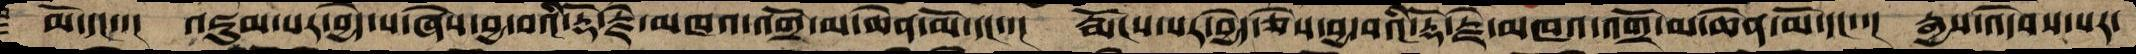མོ་དང་་།  འཇུམ་པར་བྱེད་པ་ཞེས་བྱ་བའི་རྡོ་རྗེ་མཁའ་འགྲོ་མ་ཆེན་མོ་དང་་།  རྨོངས་པར་བྱེད་ཅེས་བྱ་བའི་རྡོ་རྗེ་མཁའ་འགྲོ་མ་ཆེན་མོ་དང་་།  རྒྱས་འདེབས་པར་
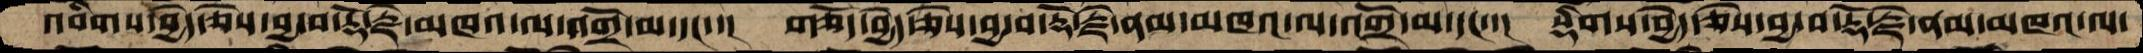འབིགས་བྱེད་ཅེས་བྱ་བ་རྡོ་རྗེ་མཁའ་ལ་འགྲོ་མ་དང་་།  གཅོད་བྱེད་ཅེས་བྱ་བ་རྡོ་རྗེ་ནམ་མཁའ་ལ་འགྲོ་མ་དང་་།  སྡིགས་བྱེད་ཅེས་བྱ་བ་རྡོ་རྗེ་ནམ་མཁའ་ལ་
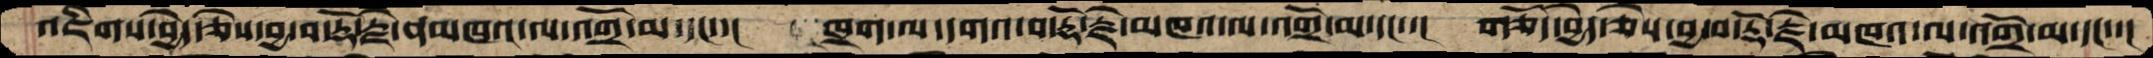འཇིགས་བྱེད་ཅེས་བྱ་བ་རྡོ་རྗེ་ནམཁའ་ལ་འགྲོ་མ་དང་་།  ཁྲག་ལ་དགའ་བ་རྡོ་རྗེ་མཁའ་ལ་འགྲོ་མ་དང་་།  གཅོད་བྱེད་ཅེས་བྱ་བ་རྡོ་རྗེ་མཁའ་ལ་འགྲོ་མ་དང་་།
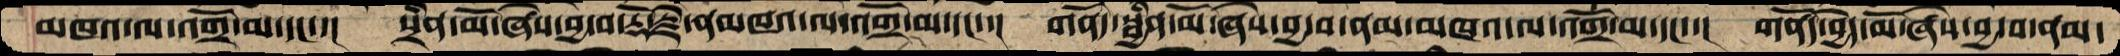མཁའ་ལ་འགྲོ་མ་དང་་།  སྲིན་མོ་ཞེས་བྱ་བ་རྡོ་རྗེ་ནམཁའ་ལ་འགྲོ་མ་དང་་།  གནོད་སྦྱིན་མོ་ཞེས་བྱ་བ་ནམ་མཁའ་ལ་འགྲོ་མ་དང་་། གནོད་བྱེད་མོ་ཞེས་བྱ་བ་ནམ་
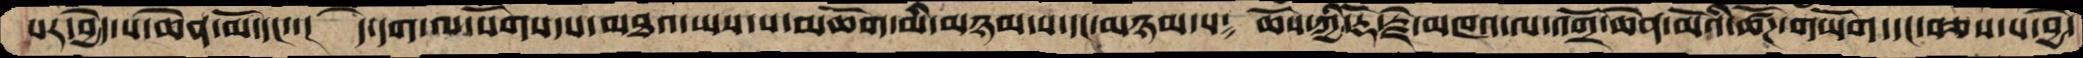པར་བྱེད་པ་ཆེན་མོ་དང་་།  དེ་དག་ལ་སོགས་པ་མཐའ་ཡས་པ་མཆོག་མི་མཉམ་པ་དང་མཉམ་པ༴  ཆོས་ཀྱི་རྡོ་རྗེ་མཁའ་ལ་འགྲོ་ཆེན་མོའི་ཚོཌ་གཡོག་དང་བཅས་པ་བྱེ་
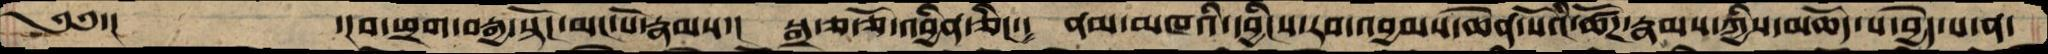༄༅་།      ་།བ་ཕྲག་བརྒྱ་སྟོང་མང་པོ་རྣམས་།  སྒྲ་ཅ་ཅོ་འབྱིན་ཅིང་༴  ནམ་མཁའི་དབྱིངས་རབ་འབྱམས་ཆེན་པོའི་ཚོཌ་རྣམས་ཀྱིས་མཆོད་པ་བྱེད་པ་ན་
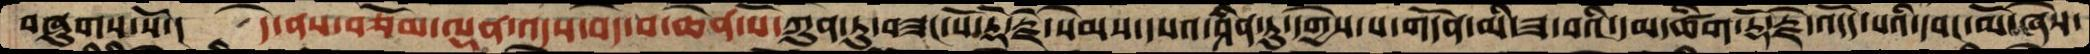བཞུགས་སོ་།   དེ་ནས་བཅོམ་ལྡན་འདས་བདེ་བ་ཆེན་པོ་ཀུན་ཏུ་བཟང་པོ་རྡོ་རྗེ་སེམས་དཔའ་ཤིན་ཏུ་དགྱེས་པ་གདོན་མི་ཟ་བའི་དམ་ཚིག་རྡོ་རྗེ་འདོད་པའི་དབང་མོ་ཞེས་
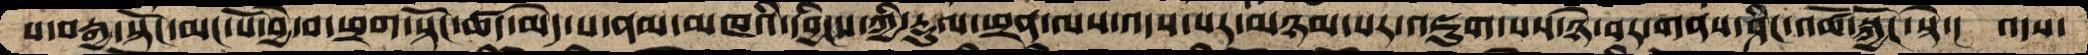པ་བརྒྱ་སྟོང་མང་པོ་བྱེ་བ་ཕྲག་སྟོང་ཚད་མེད་པ་ནམ་མཁའི་དབྱིངས་ཀྱི་རྡུལ་ཕྲན་ལས་འདས་པར་མཉམ་པར་འཇུག་པས་ཉེ་བར་གནས་ཤིང་འཚོ་སྐྱོང་སྟེ་།  འདས་
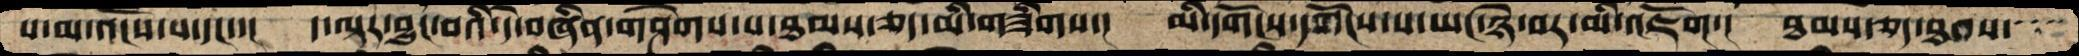པ་མ་འོངས་པ་དང་་།  ད་ལྟར་བྱུང་བའི་དེ་བཞིན་གཤེགས་པ་ཐམས་ཅད་མི་གཟིགས་།  མི་དགོངས་དགོངས་པ་ཡང་ཉེ་བར་མི་འཇོག་།  ཐམས་ཅད་ཐབས་
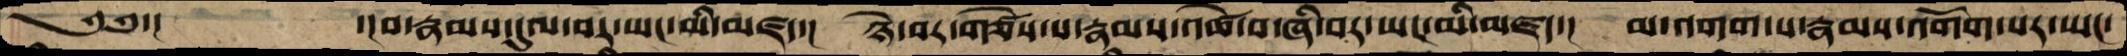༄༅་།      ་།བ་རྣམས་དུལ་བར་ཡང་མི་མཛད་།  ཉེ་བར་གཙེས་པ་རྣམས་འཚེ་བ་ཞི་བར་ཡང་མི་མཛད་།  མ་འགག་པ་རྣམས་འགོག་པར་ཡང་
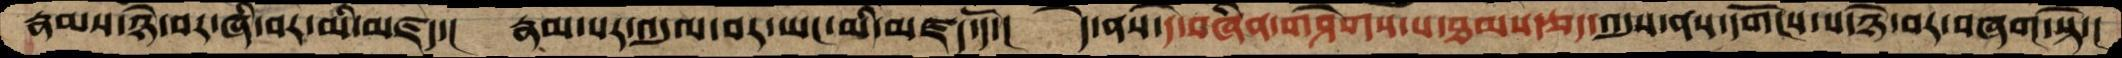རྣམས་ཉེ་བར་ཞི་བར་མི་མཛད་།  རྣམ་པར་འདུལ་བར་ཡང་མི་མཛད་དོ་།   དེ་ནས་དེ་བཞིན་གཤེགས་པ་ཐམས་ཅད་འདུས་ནས་དགོངས་པ་ཉེ་བར་བཞག་སྟེ་།
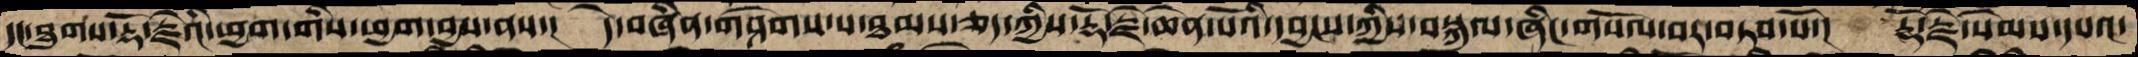དང་ཐུགས་རྡོ་རྗེའི་ཕྱག་གིས་ཕྱག་བྱས་ནས་།  དེ་བཞིན་གཤེགས་པ་ཐམས་ཅད་ཀྱིས་རྡོ་རྗེ་ཆེན་པོའི་དབྱངས་ཀྱིས་བསྐུལ་ཞིང་གསོལ་བར་བཏབ་པོ་།  རྡོ་རྗེ་སེམས་དཔའ་
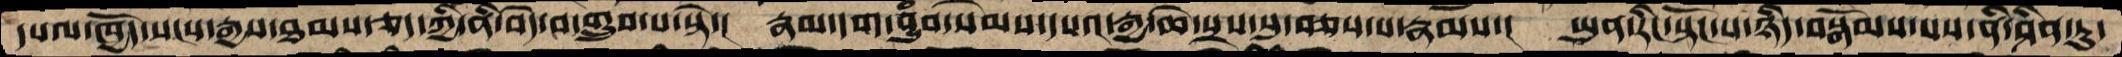དཔལ་ཁྱོད་སངས་རྒྱས་ཐམས་ཅད་ཀྱི་ནི་བདེ་བ་གྲུབ་པ་སྟེ་།  རྣམ་དག་བྱུཾབ་སེམས་དཔའ་རྒྱ་ཆེ་སྲས་སུ་བཅས་པ་རྣམས་།  ཡུན་རིང་སྟོང་པ་ཉིད་བསྒོམས་པས་ནི་ཤིན་ཏུ་
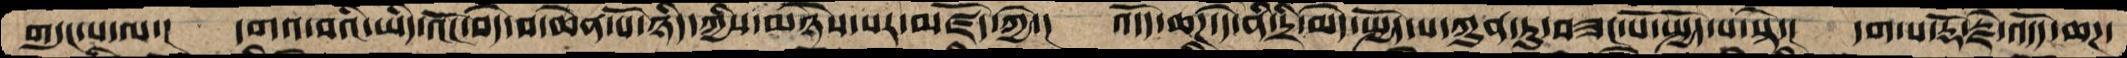གདུང་པ་ལ་།  དགའ་བའི་ཡིད་འོང་བདེ་བ་ཆེན་པོ་ཉིད་ཀྱིས་མཉེས་པར་མཛོད་ཀྱེ་།  འདོད་ཆཌ་དེ་ནི་དྲི་མེད་སྤྱོད་པ་ཀུན་ཏུ་བཟང་པོ་སྤྱོད་པ་སྟེ་།  དག་པ་རྡོ་རྗེ་འདོད་ཆཌ་
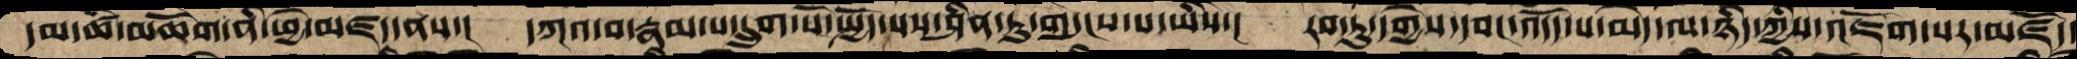དམ་ཚི་མཆོག་ནི་ཕྱེ་མཛད་ནས་།  དཀའ་བ་རྣམ་པ་དྲུག་པོ་སྤྱོད་པས་ཤིན་ཏུ་གདུངས་པ་ཡིས་།  རབ་ཏུ་དགྱེས་དབང་འདོད་པ་མེད་ལ་ཉིད་ཀྱིས་འཇོག་པར་མཛོད་
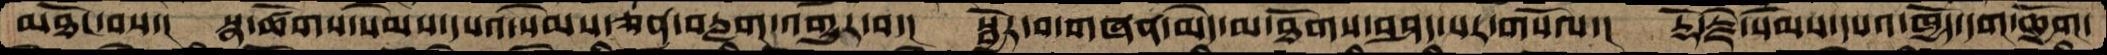མཐོང་བས་།  སྣ་ཚོགས་སེམས་དཔའ་སེམས་ཅན་བརླག་འགྱུར་བ་།  སྦྱོར་བ་གཞན་མེད་མ་ཐོགས་བཤད་པར་གསོལ་།  རྡོ་རྗེ་སེམས་དཔའ་ཁྱོད་དག་ཆྱོག།
